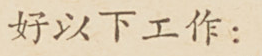好以下工作：
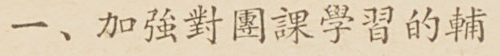一、加強對團課學習的輔
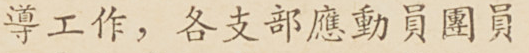導工作，各支部應動員團員
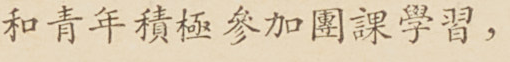和青年積極參加團課學習，
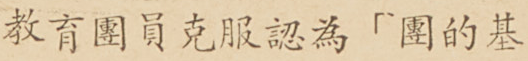教育團員克服認為「團的基
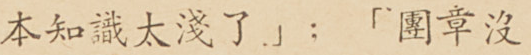本知識太淺了」；「團章沒
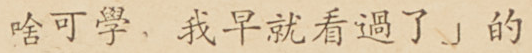啥可學，我早就看過了」的
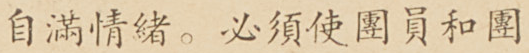自滿情緒。必須使團員和團
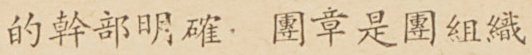的幹部明確，團章是團組織
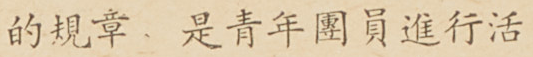的規章，是青年團員進行活
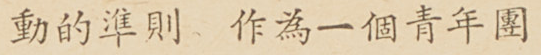動的準則。作為一個青年團
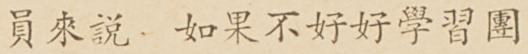員來說，如果不好好學習團
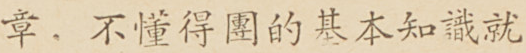章，不懂得團的基本知識就
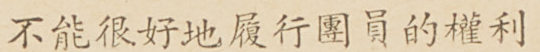不能很好地履行團員的權利
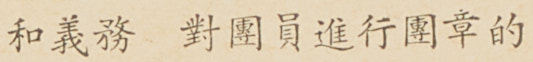和義務，對團員急性團章的
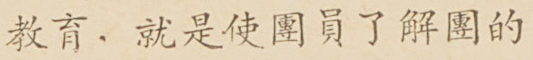教育，就是使團員了解團的
